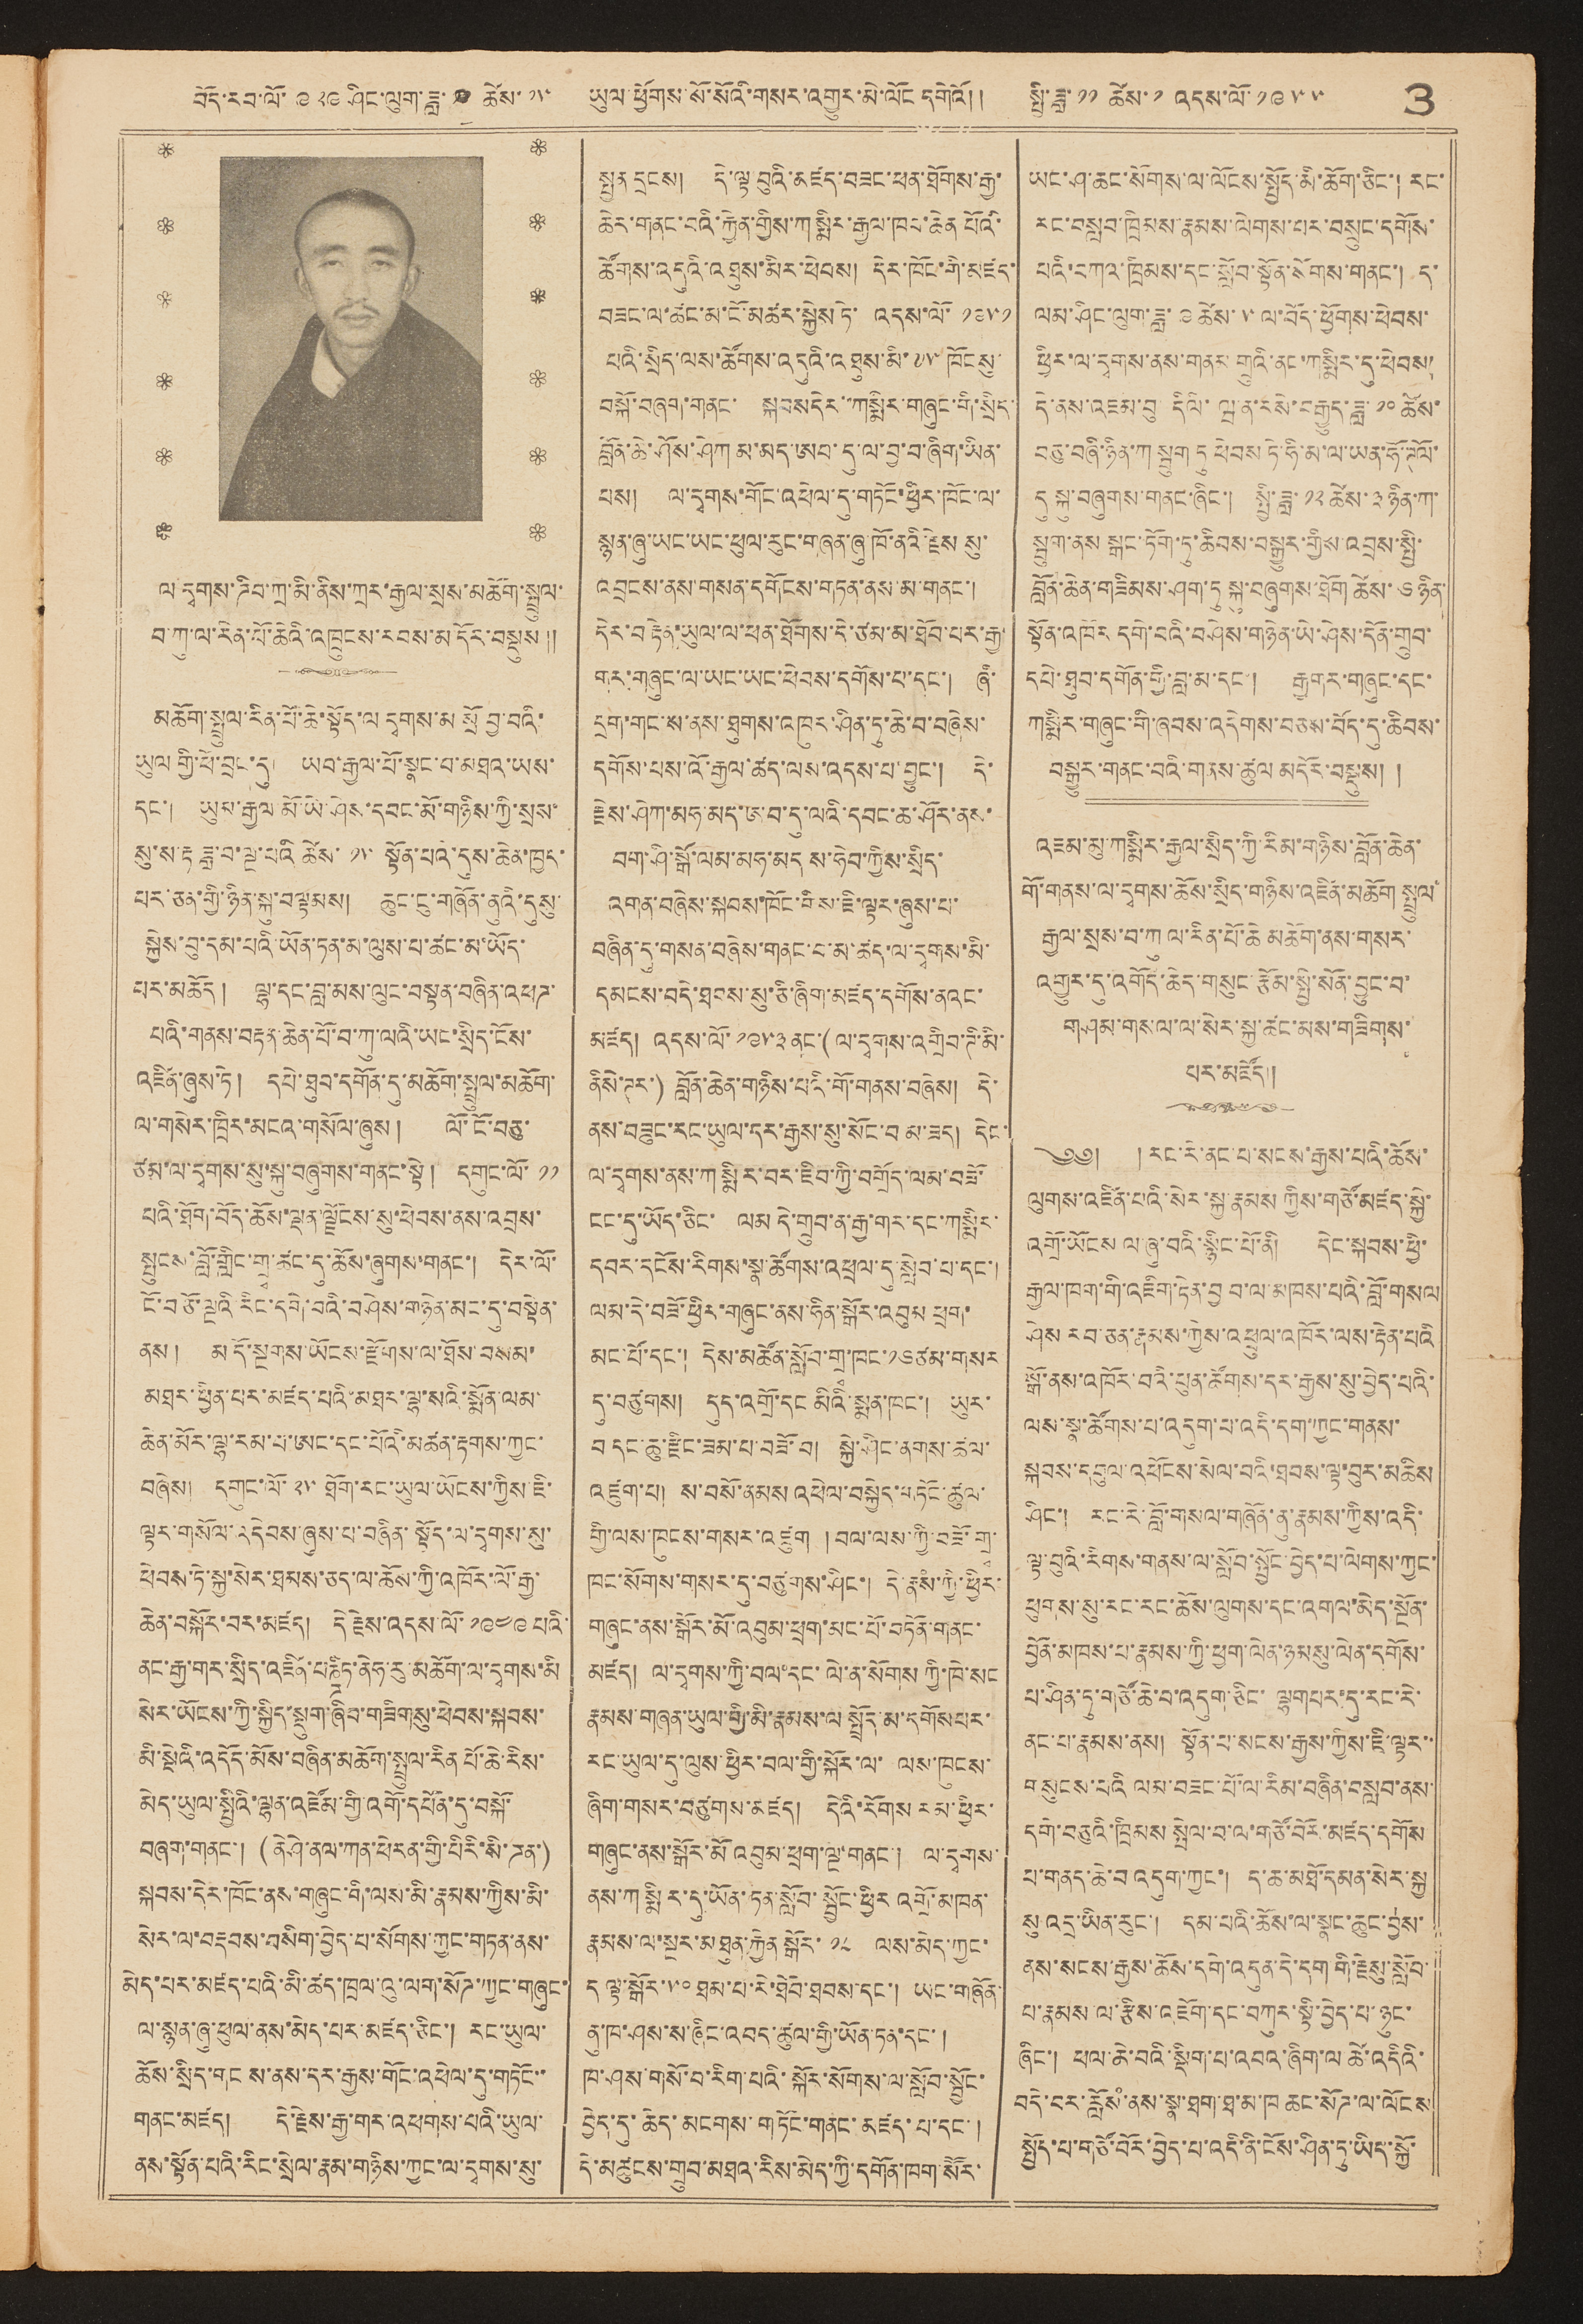བོད་རབ་ལོ་ ༩༢༩ ཤིང་ལུག་ཟླ་ ༡༡ ཚེས་ ༡༥ ཡུལ་ཕྱོགས་སོ་སོའི་གསར་འགྱུར་མེ་ལོང དགེའོ། །     སྤྱི་ཟླ་ ༡༡ ཚེས་ ༡ འདས་ལོ་ ༡༩༥༥    3
ལ དྭགས་ཌིབ་ཀྲ་མི་ནིས་ཀྲར་རྒྱལ་སྲས་མཆོག་སྤྲུལ་
བ་ཀུ་ལ་རིན་པོ་ཆེའི་འཁྲུངས་རབས་མདོར་བསྡུས།།
མཆོག་སྤྲུལ་རིན་པོ་ཆེ་སྟོད་ལ དྭགས་མ སྲོ བྱ་བའི་
ཡུལ གྱི་ཕོ་བྲང་དུ། ཡབ་རྒྱལ་པོ་སྣང་བ་མཐའ་ཡས་
དང་། ཡུམ་རྒྱལ་མོ་ཡེ་ཤེས་དབང་མོ་གཉིས་ཀྱི་སྲས་
སུ་ས་རྟ ཟླ་བ་ལྔ་པའི ཚེས་ ༡༥ སྟོན་པའི་དུས་ཆེན་ཁྱད་
པར་ཅན་གྱི་ཉིན་སྐུ་བལྟམས། ཆུང་ངུ་གཞོན་ནུའི་དུསུ་
སྐྱེས་བུ་དམ་པའི་ཡོན་ཏན་མ་ལུས་པ་ཚང་མ་ཡོད་
པར་མཆོད། ལྷ་དང་བླ་མས་ལུང་བསྟན་བཞིན་འཕཌ་
པའི་གནས་བརྟན་ཆེན་པོ་བ་ཀུ་ལའི་ཡང་སྲིད་ངོས་
འཛིན་ཞུས་ཏེ། དཔེ་ཐུབ་དགོན་དུ་མཆོག་སྤྲུལ་མཆོག་
ལ་གསེར་ཁྲིར་མངའ་གསོལ་ཞུས། ལོ་ངོ་བཅུ་
ཙམ་ལ་དྭགས་སུ་སྐུ་བཞུགས་གནང་སྟེ། དགུང་ལོ་ ༡༡
པའི་ཐོག་བོད་ཆོས་ལྡན་ལྗོངས་སུ་ཕེབས་ནས་འབྲས་
སྤུངས་བློ་གླིང་གྲྭ་ཚང་དུ་ཆོས་ཞུགས་གནང་། དེར་ལོ་
ངོ་བཅོ་ལྔའི་རིང་དགེ་བའི་བཤེས་གཉེན་མང་དུ་བསྟེན་
ནས། མདོ་སྔགས་ཡོངས་རྫོགས་ལ་ཐོས་བསམ་
མཐར་ཕྱིན་པར་མཛད་པའི་མཐར་ལྷ་སའི་སྨོན་ལམ་
ཆེན་མོར་ལྷ་རམ་པ་ཨང་དང་པོའི་མཚན་རྟགས་ཀྱང་
བཞེས། དགུང་ལོ་ ༢༥ ཐོག་རང་ཡུལ་ཡོངས་ཀྱིས་ཇི་
ལྟར་གསོལ་འདེབས་ཞུས་པ་བཞིན་སྟོད་ལ་དྭགས་སུ་
ཕེབས་ཏེ་སྐྱ་སེར་ཐམས་ཅད་ལ་ཆོས་ཀྱི་འཁོར་ལོ་རྒྱ་
ཆེན་བསྐོར་བར་མཛད། དེ རྗེས་འདས་ལོ་ ༡༩༤༩ པའི་
ནང་རྒྱ་གར་སྲིད་འཛིན་པཎྜིཏ་ནེཧ་རུ་མཆོག་ལ་དྭགས་མི
སེར་ཡོངས་ཀྱི་སྐྱིད་སྡུག་ཞིབ་གཟིགསུ་ཕེབས་སྐབས་
མི་སྡེའི་འདོད་མོས་བཞིན་མཆོག་སྤྲུལ་རིན པོ་ཆེ་རིས་
མེད་ཡུལ་སྤྱིའི་ལྷན་འཛོམ་གྱི་འགོ་དཔོན་དུ་བསྐོ་
བཞག་གནང་། (ནེཤེ་ནལ་ཀན་ཕེརན་གྱི་པིརི་སི་ཌན་)
སྐབས་དེར་ཁོང་ནས་གཞུང་གི་ལས་མི་རྣམས་ཀྱིས་མི་
སེར་ལ་བརྡབས་བསིག་བྱེད་པ་སོགས་ཀྱང་གཏན་ནས་
མེད་པར་མཛད་པའི་མི་ཚད་ཁྲལ་འུ་ལག་སོཌ་ཀྱང་གཞུང་
ལ་སྙན་ཞུ་ཕུལ་ནས་མེད་པར་མཛད་ཅིང་། རང་ཡུལ་
ཆོས་སྲིད་གང ས་ནས་དར་རྒྱས་གོང་འཕེལ་དུ་གཏོང་་
གནང་མཛད། དེ་རྗེས་རྒྱ་གར་འཕགས་པའི་ཡུལ་
ནས་སྟོན་པའི་རིང་སྲེལ་རྣམ་གཉིས་ཀྱང་ལ་དྭགས་སུ་
སྤྱན དྲངས། དེ་ལྟ བུའི་མཛད་བཟང་ཕན་ཐོགས་རྒྱ་
ཆེར་གནང་བའི་རྐྱེན་གྱིས་ཀསྨིར་རྒྱལ་ཁབ་ཆེན པོའི་
ཚོགས་འདུའི་འཐུས་མིར་ཕེབས། དེར་ཁོང་གི་མཛད་
བཟང་ལ་ཚང་མ་ངོ་མཚར་སྐྱེས ཏེ་ འདས་ལོ་ ༡༩༥༡
པའི་སྲིད་ལས་ཚོགས་འདུའི་འཐུས་མི་ ༧༥ ཁོངསུ་
བསྐོ་བཞག་གནང་  སྐབས དེར་་ཀསྨིར་གཞུང་གི་སྲིད་
བློན་ཆེ་ཤོས་ཤེཀ མ་མད་ཨབ་དུ་ལ་བྱ་བ་ཞིག་ཡིན་
པས། ལ་དྭགས་གོང་འཕེལ་དུ་གཏོང་ཕྱིར་ཁོང་ལ་
སྙན་ཞུ་ཡང་ཡང་ཕུལ་རུང་གཞན་ཞུ་ཁོ་ནའི་རྗེས སུ་
འབྲངས་ནས་གསན་དགོངས་གཏན་ནས་མ་གནང་།
དེར་བརྟེན་ཡུལ་ལ་ཕན་ཐོགས་དེ་ཙམ་མ་ཐོབ་པར་རྒྱ་
གར་གཞུང་ལ་ཡང་ཡང་ཕེབས་དགོས་པ་དང་།    ཞི་
དྲག་གང་ས་ནས་ཐུགས་འཁུར་ཤིན་ཏུ་ཆེ་བ་བཞེས་
དགོས་པས་འོ་རྒྱལ་ཚད་ལས་འདས་པ་བྱུང་། དེ་
རྗེས་ཤེཀ་མཧ་མད་ཨབ་དུ་ལའི་དབང་ཆ་ཤོར་ནས་
བག་ཤི་སྒོ་ལམ་མཧ་མད ས་ཧེབ་ཀྱིས་སྲིད་
འགན་བཞེས་སྐབས་ཁོང་གིས་ཇི་ལྟར་ཞུས་པ་
བཞིན་དུ་གསན་བཞེས་གནང་བ་མ་ཚད་ལ་དྭགས་མི་
དམངས་བདེ་ཐབས་སུ་ཅི་ཞིག་མཛད་དགོས་ནའང་
མཛད། འདས་ལོ་ ༡༩༥༣ ནང་(ལ་དྭགས་འགྲིབ་ཊི་མི་
ནིསེ་ཊར་) བློན་ཆེན་གཉིས་པའི་གོ་གནས་བཞེས། དེ་
ནས་བཟུང་རང་ཡུལ་དར་རྒྱས་སུ་སོང་བ མ་ཟད། དེང་
ལ་དྭགས་ནས་ཀསྨིར་བར་ཇིབ་ཀྱི་བགྲོད་ལམ་བཟོ་
ངང་དུ་ཡོད་ཅིང་ ལམ དེ་གྲུབ་ན་རྒྱ་གར་དང་ཀསྨིར་
དབར་དངོས་རིགས་སྣ་ཚོགས་འཕྲལ་དུ་སླེབ་པ་དང་།
ལམ་དེ་བཟོ་ཕྱིར་གཞུང་ནས་ཧིན་སྒོར་འབུམ ཕྲག་
མང་པོ་དང་། དེས་མཚོན་སློབ་གྲྭ་ཁང་ ༡༦ ཙམ་གསར
དུ་བཙུགས། དུད་འགྲོ་དང མིའི་སྨན་ཁང་། ཡུར་
བ དང་ཆུ་རྫིང་ཟམ་པ་བཟོ་བ། སྐྱེ་ཤིང་ནགས་ཚལ་
འཛུག་པ། ས་བསོ་ནམས འཕེལ་བསྐྱེད་གཏོང་ཚུལ་
གྱི་ལས་ཁུངས་གསར་འཛུག །བལ་ལས་ཀྱི་བཟོ་གྲྭ་
ཁང་སོགས་གསར་དུ་བཙུགས་ཤིང་། དེ་རྣསཾ་ཀྱི་ཕྱིར་
གཞུང་ནས་སྒོར་མོ་འབུམ་ཕྲག་མང་པོ་བཏོན་གནང་
མཛད། ལ་དྭགས་ཀྱི་བལ་དང་ལེ་ན་སོགས ཀྱི་ཁེ་སང
རྣམས་གཞན་ཡུལ་གྱི་མི་རྣམས་ལ སྤྲོད་མ་དགོས པར་
རང་ཡུལ་དུ་ལུས་ཕྱིར་བལ་གྱི་སྐོར་ལ་ ལས་ཁུངས་
ཞིག་གསར་བཙུགས་མཛད། དེའི་རོགས རམ་ཕྱིར་
གཞུང་ནས་སྒོར་མོ འབུམ་ཕྲག་ལྔ་གནང་། ལ་དྭགས་
ནས་ཀསྨིར་དུ་ཡོན་ཏན་སློབ་སྦྱོང་ཕྱིར འགྲོ་མཁན་
རྣམས་ལ་སྔར་མཐུན་རྐྱེན སྒོར་ ༡༨ ལས་མེད་ཀྱང་
ད ལྟ་སྒོར་༥༠ ཐམ་པ་རེ་ཐོབ་ཐབས་དང་། ཡང་གཞོན་
ནུ་ཁ་ཤས་ས་ཞིང་འབད་ཚུལ་གྱི་ཡོན་ཏན་དང་།
ཁ་ཤས་གསོ་བ་རིག་པའི་སྐོར་སོགས་ལ་སློབ་སྦྱོང་
བྱེད་དུ་ཆེད་མངགས་གཏོང་གནང་མཛད་པ་དང་།
དེ་མཚུངས་གྲུབ་མཐའ་རིས་མེད་ཀྱི་དགོན་ཁག་སཽར་
ཡང་ཤ་ཆང་སོགས་ལ་ལོངས་སྤྱོད་མི་ཆོག་ཅིང་། རང་
རང་བསླབ་ཁྲིམས་རྣམས་ལེགས་པར་བསྲུང་དགོས་
པའི་བཀའ་ཁྲིམས་དང་སློབ་སྟོན་སོགས་གནང་། ད་
ལམ་ཤིང་ལུག་ཟླ་ ༩ ཚེས་ ༥ ལ་བོད་ཕྱོགས་ཕེབས་
ཕྱིར་ལ་དྭགས་ནས་གནམ གྲུའི་ནང་ཀསྨིར་དུ་ཕེབས།
དེ་ནས་འཇམ་བུ་ དིལི་ ཝ་ན་རསེ་བརྒྱུད་ཟླ་ ༡༠ ཚེས་
བཅུ་བཞི་ཉིན་ཀ སྦུག ཏུ ཕེབས ཏེ་ཧི་མ་ལ་ཡན་ཧོ་ཊོལ་
དུ སྐུ་བཞུགས་གནང་ཞིང་། སྤྱི་ཟླ་ ༡༢ ཚེས་ ༣ ཉིན་ཀ་
སྦུག་ནས སྒང་ཏོག་ཏུ་ཆིབས་བསྒྱུར་གྱིས་འབྲས་སྤྱི་
བློན་ཆེན་གཟིམས་ཤག་ཏུ སྐུ་བཞུགས་ཐོག ཚེས་ ༦ ཉིན་
སྟོན་འཁོར དགེ་བའི་བཤེས་གཉེན་ཡེ་ཤེས་དོན་གྲུབ་
དཔེ་ཐུབ་དགོན་གྱི་བླ་མ་དང་། རྒྱ་གར་གཞུང་དང་
ཀསྨིར་གཞུང་གི་ཞབས་འདེགས་བཅས་བོད་དུ་ཆིབས་
བསྒྱུར་གནང་བའི་གནས་ཚུལ མདོར་བསྡུས། །
འཇམ་མུ་ཀསྨིར་རྒྱལ་སྲིད་ཀྱི་རིམ་གཉིས་བློན་ཆེན་
གོ་གནས་ལ་དྭགས་ཆོས་སྲིད་གཉིས་འཛིན་མཆོག སྤྲུལ་
རྒྱལ་སྲས་བ་ཀུ ལ་རིན་པོ་ཆེ མཆོག་ནས་གསར་
འགྱུར་དུ་འགོད་ཆེད་གསུང་རྩོམ་སྤྱི་སོན་བྱུང་བ་
གཤམ་གསལ་ལ་སེར་སྐྱ་ཚང་མས་གཟིགས་
པར་མཛོད།།
༄༅། །རང་རེ་ནང་པ་སངས་རྒྱས་པའི་ཆོས་
ལུགས་འཛིན་པའི་སེར་སྐྱ་རྣམས ཀྱིས་གཙོ་མཛད་སྐྱེ་
འགྲོ་ཡོངས ལ་ཞུ་བའི་སྙིང་པོ་ནི། དེང་སྐབས་ཕྱི་
རྒྱལ་ཁག་གི་འཇིག་རྟེན་བྱ བ་ལ་མཁས་པའི་བློ་གསལ
ཤེས རབ་ཅན་རྣམས་ཀྱིས་འཕྲུལ་འཁོར་ལས་རྟེན་པའི
སྒོ་ནས་འཁོར་བའི་ཕུན་ཚོགས་དར་རྒྱས་སུ་བྱེད་པའི་
ལས་སྣ་ཚོགས་པ་འདུག་པ་འདི་དག་ཀྱང་གནས་
སྐབས་དབུལ་འཕོངས་སེལ་བའི་ཐབས་ལྟ་བུར་མཆིས
ཤིང་། རང་རེ་བློ་གསལ་གཞོན་ནུ་རྣམས་ཀྱིས་འདི་
ལྟ་བུའི་རིགས་གནས་ལ་སློབ་སྦྱོང་བྱེད་པ་ལེགས་ཀྱང་
ཕུགས་སུ་རང་རང་ཆོས་ལུགས་དང་འགལ་མེད་སྔོན་
བྱོན་མཁས་པ་རྣམས་ཀྱི་ཕྱག་ལེན་ཉམསུ་ལེན་དགོས་
པ་ཤིན་ཏུ་གཙོ་ཆེ་བ་འདུག་ཅིང་ ལྷག པར་དུ་རང་རེ་
ནང་པ་རྣམས་ནས། སྟོན་པ་སངས་རྒྱས་ཀྱིས་ཇི་ལྟར་་
བསུངས་པའི ལམ་བཟང་པོ་ལ་རིམ་བཞིན་བསླབ་ནས་
དགེ་བཅུའི་ཁྲིམས་སྤེལ་བ་ལ་གཙོ་བོར་མཛད་དགོས
པ་གནད་ཆེ་བ་འདུག་ཀྱང་། ད་ཆ་མཐོ་དམན་སེར་སྐྱ
སུ་འདྲ་ཡིན་རུང་། དམ་པའི་ཆོས་ལ་སྣང་ཆུང་བྱས་
ནས་སངས་རྒྱས་ཆོས་དགེ་འདུན་དེ་དག་གི་རྗེསུ་སློབ་
པ་རྣམས་ལ་རྩིས་འཇོག་དང་བཀུར་སྟི་བྱེད་པ་ཉུང་
ཞིང་། ཕལ་ཆེ་བའི་སྡིག་པ་འབའ་ཞིག་ལ ཚེ་འདིའི་
བདེ་བར་རློསཾ་ནས་སྣ་ཐག་ཐ་མ་ཁ ཆང་སོཌ་ལ་ལོངས
སྤྱོད་པ་གཙོ་བོར་བྱེད་པ་འདི་ནི་ངོས་ཤིན་ཏུ་ཡིད་སྐྱོ་
